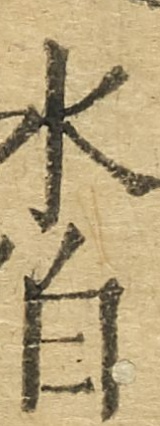水伯
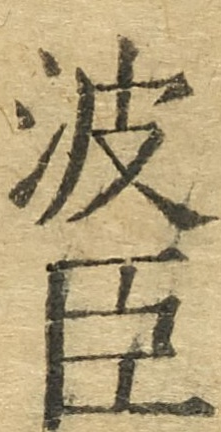波臣
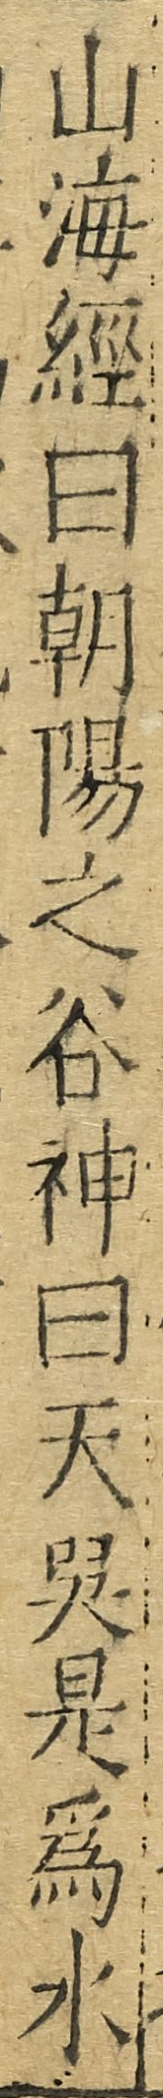山海經曰朝陽之穀神曰天吳是為水
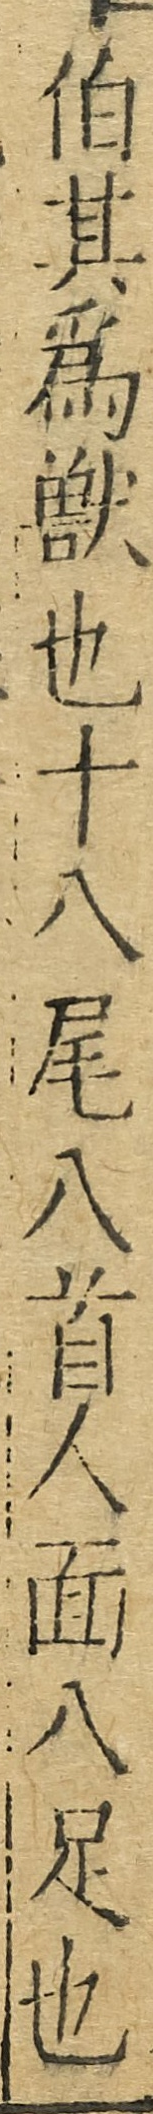伯其為獸也十八尾八首人面八足也
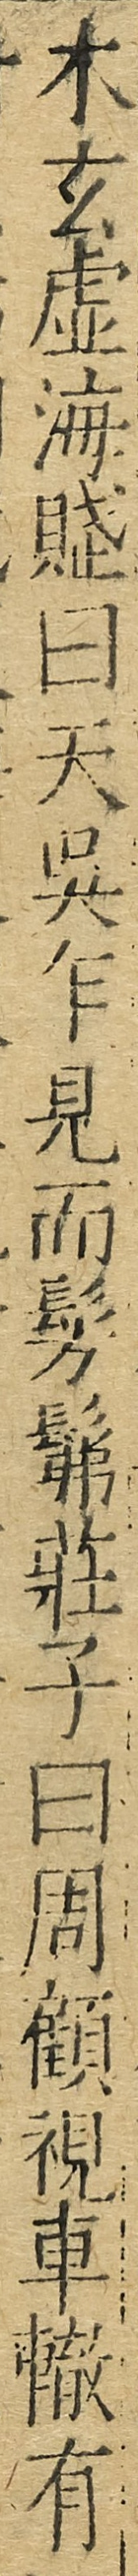木玄虛海賦曰天吳乍見而髣髴莊子曰周顧視車轍有
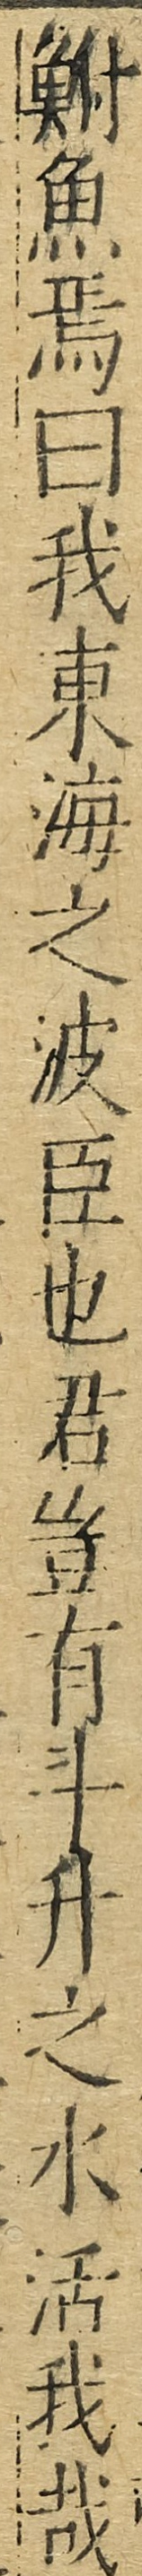鮒魚焉曰我東海之波臣也君豈有斗升之水活我哉
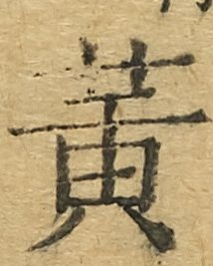黃
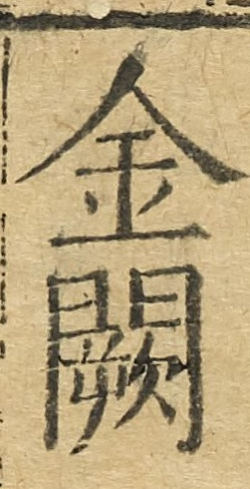金闕
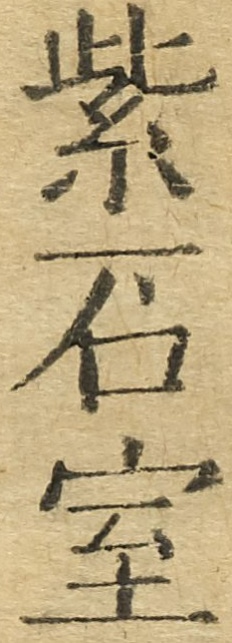紫石室
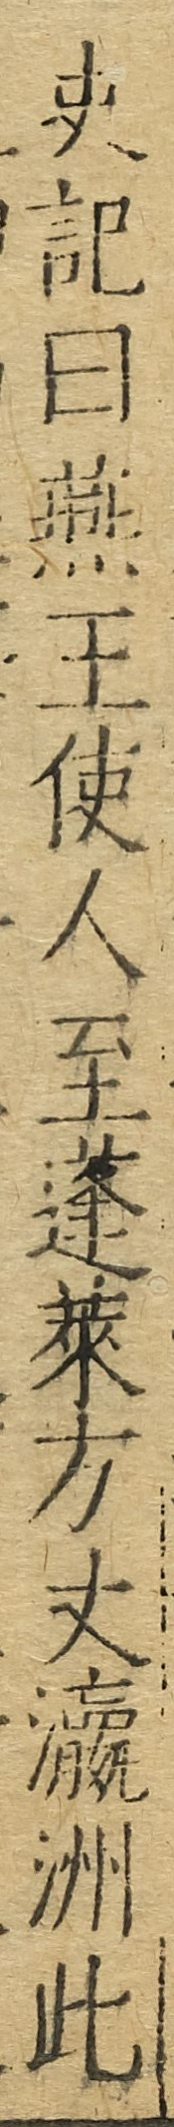史記曰燕王使人至蓬萊方丈瀛洲此
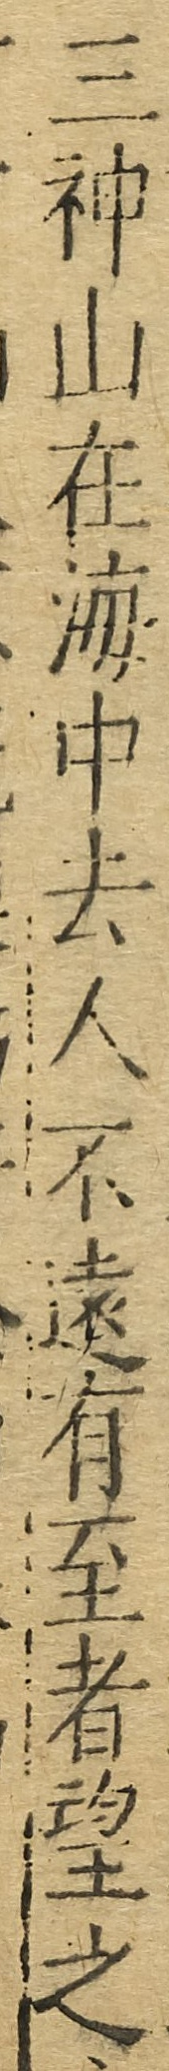三神山在海中去人不遠有至者望之
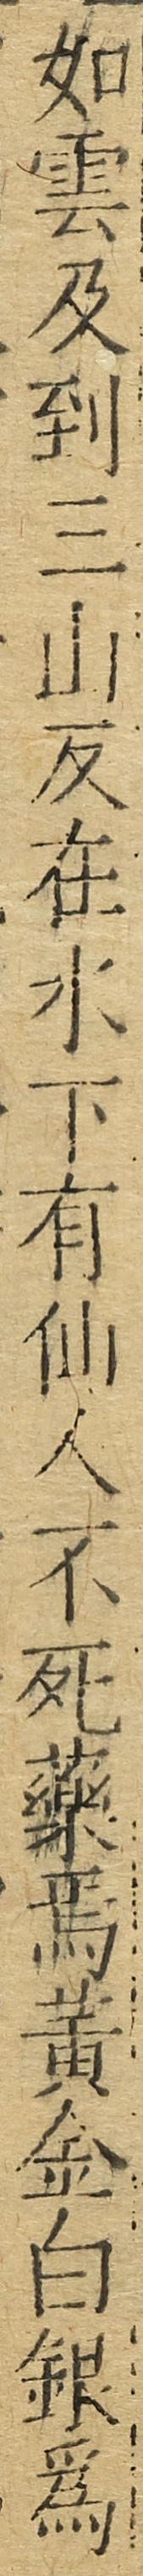如雲及到三山反在水下有仙人不死藥焉黃金白銀為
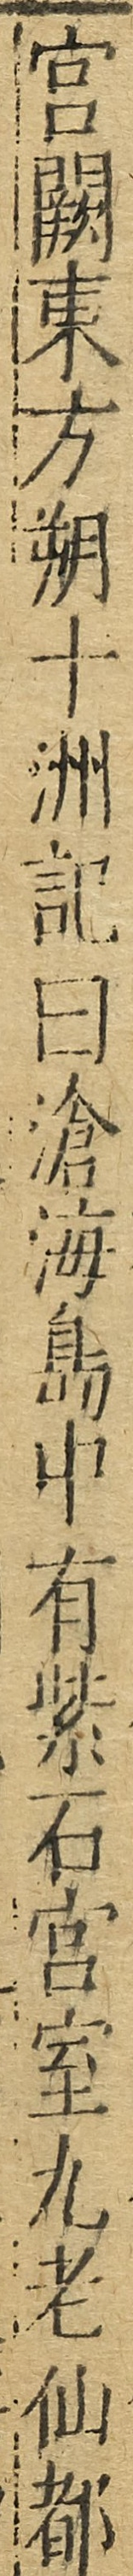宮闕東方朔十洲記曰滄海島中有紫石宮室九老仙都
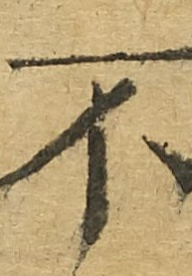不
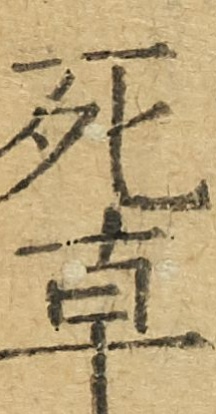死草
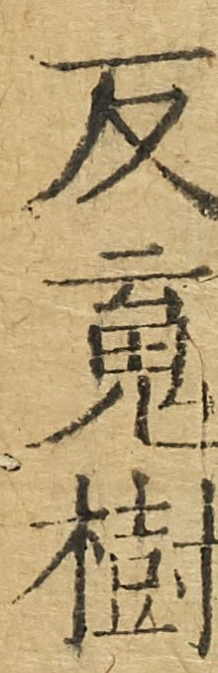反魂樹
